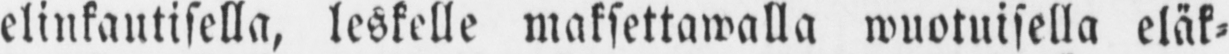elinkautisella, leskelle maksettawalla wuotuisella eläk-
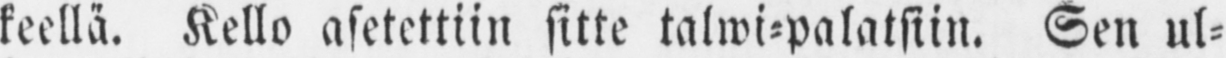keellä. Kello asetettiin sitte talwi-palatsiin. Sen ul-
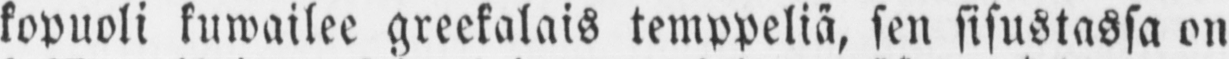kopuoli kuwailee greekalais temppeliä, sen sisustassa on
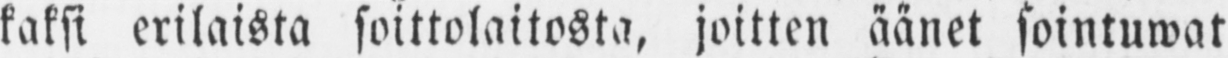kaksi erilaista soittolaitosta, joitten äänet sointuwat
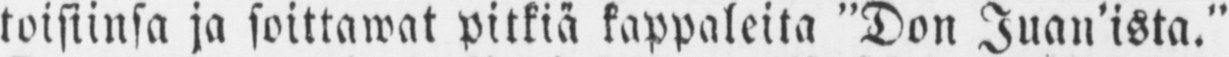toisiinsa ja soittawat pitkiä kappaleita "Don Juan'ista."
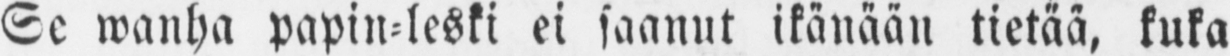Se wanha papin-leski ei saanut itänään tietää, kuka
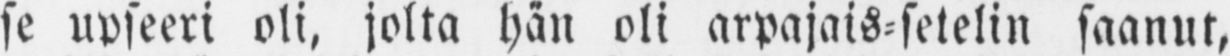se upseeri oli, jolta hän oli arpajais-setelin saanut,
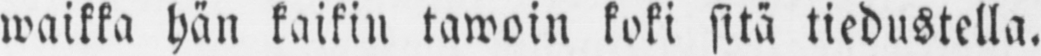waikka hän kaikin tawoin koki sitä tiedustella.
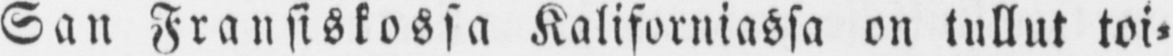San Fransiskossa Kaliforniassa on tullut toi-
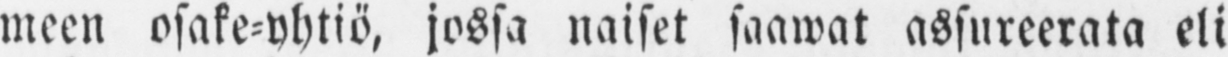meen osake-yhtiö, jossa naiset saawat assureerata eli
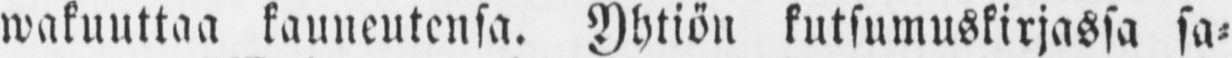wakuuttaa kauneutensa. Ahtiön kutsumuskirjassa sa-
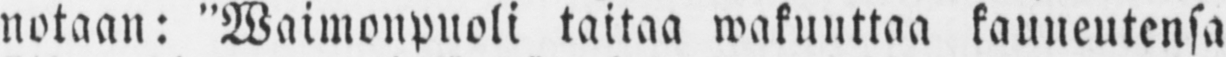notaan: "Waimonpuoli taitaa wakuuttaa kauneutensa
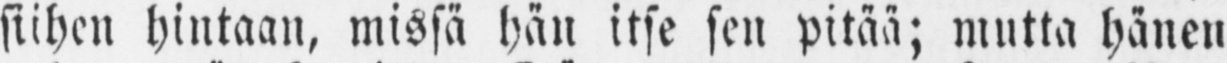siihen hintaan, missä hän itse sen pitää; mutta hänen
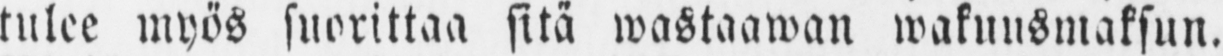tulee myös suorittaa sitä wastaawan wakuusmaksun.
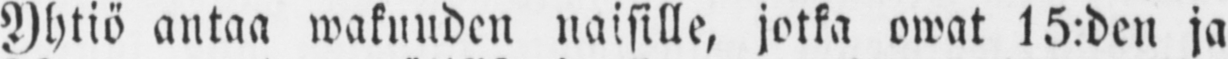Yhtiö antaa wakuuden naisille, jotka owat 15:den ja
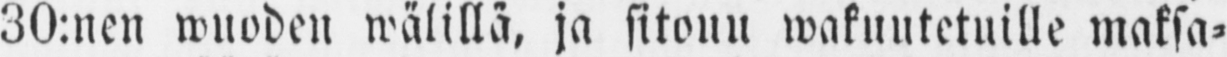30:nen wuoden wälillä, ja sitouu wakuutetuille maksa-
